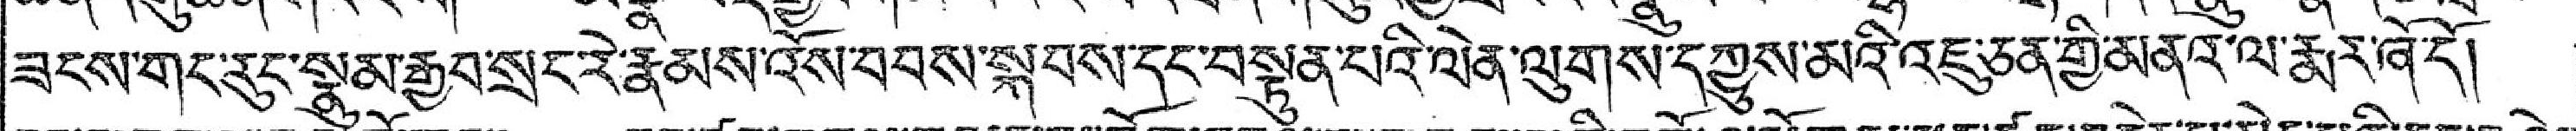ཟངས་གང་རུང་སྣུམ་རྒྱབ་སྲང་རེ་རྣམས་འོས་བབས་སྐབས་དང་བསྟུན་པའི་ལེན་ལུགས་དཀྱུས་མའི་འཇུ་ཅན་གྱི་མནའ་ལ་རྨར་ཞོ་དོ། །
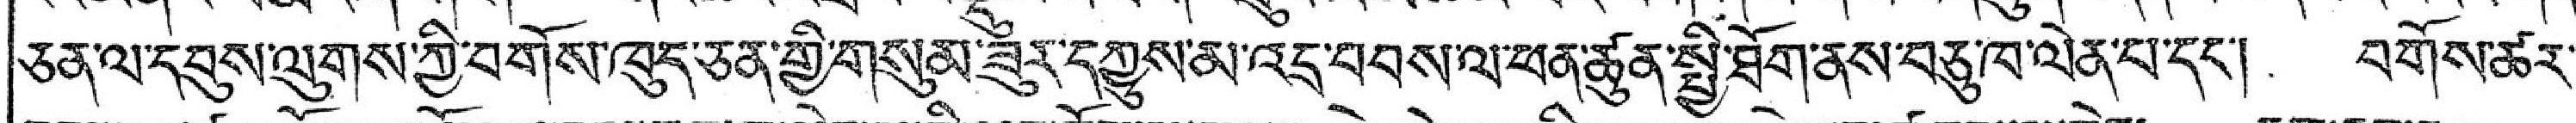ཅན་ལ་དབུས་ལུགས་ཀྱི་བགོས་ཁུད་ཅན་གྱི་གསུམ་ཟུར་དཀྱུས་མ་འདྲ་བབས་ལ་ཕན་ཚུན་སྤྱི་ཐོག་ནས་བཅུ་ཁ་ལེན་པ་དང་། བགོས་ཚར་
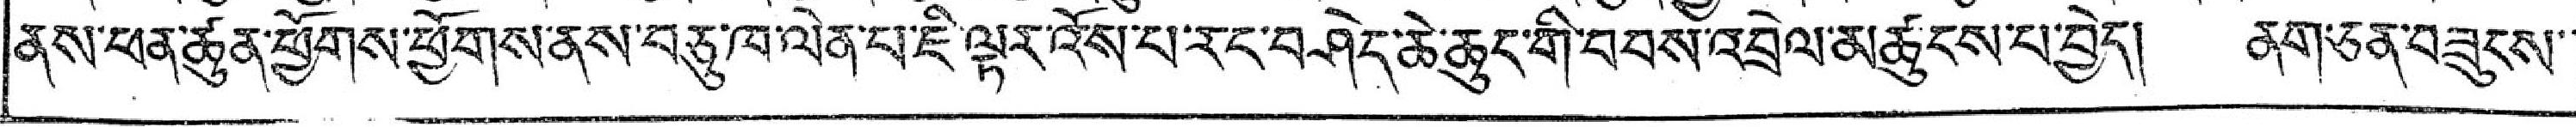ནས་ཕན་ཚུན་ཕྱོགས་ཕྱོགས་ནས་བཅུ་ཁ་ལེན་པ་ཇི་ལྟར་འོས་པ་རང་བཤེད་ཆེ་ཆུང་གི་བབས་འབྲེལ་མཚུངས་པ་བྱེད། ནག་ཅན་བཟུངས་་
